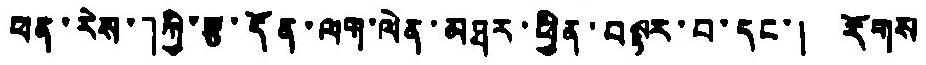ཕན་རེས་」ཀྱི་རྩ་དོན་ལག་ལེན་མཐར་ཕྱིན་བསྟར་བ་དང་། རོགས
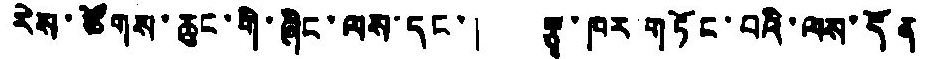རེས་ཚོགས་ཆུང་གི་ཞིང་ལས་དང་། རྩྭ་ཁར གཏོང་བའི་ལས་དོན
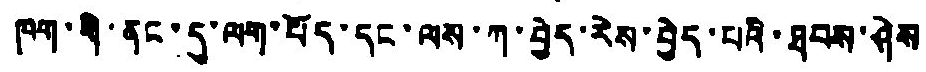ཁག་གི་ནང་དུ་ལག་པོད་དང་ལས་ཀ་བྱེད་རེས་བྱེད་པའི་ཐབས་ཤེས
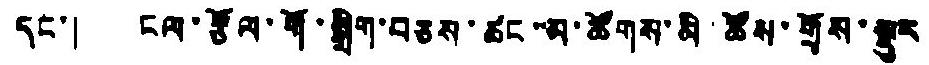དང་། ངལ་རྩོལ་གོ་སྒྲིག་བཅས་ཚང་མ་ཚོགས་མི་ཚོས་གྲོས་སྡུར
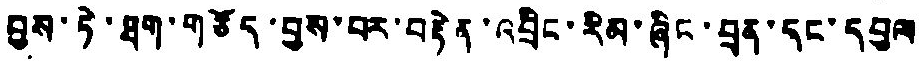བྱས་ཏེ་ཐག་གཅོད་བྱས་པར་བརྟེན་འབྲིང་རིམ་ཞིང་བྲན་དང་དབུལ
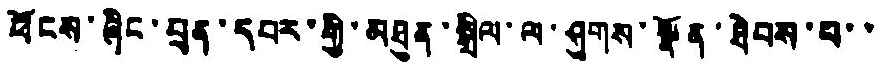ཕོངས་ཞིང་བྲན་དབར་གྱི་མཐུན་སྒྲིལ་ལ་ཤུགས་སྣོན་ཐེབས་པ་་་
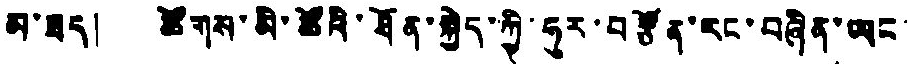མ་ཟད། ཚོགས་མི་ཚོའི་ཐོན་སྐྱེད་ཀྱི་ཧུར་བརྩོན་དང་བཞིན་ཡང་
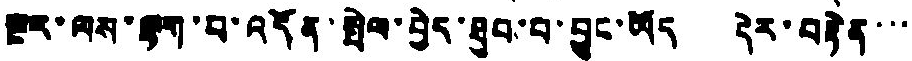སྔར་ལས་ལྟག་པ་འདོན་སྤེལ་བྱེད་ཐུབ་པ་བྱུང་ཡོད དེར་བརྟེན་་་
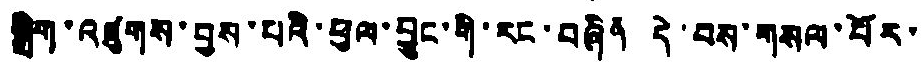སྒྲིག་འཛུགས་བྱས་པའི་ཕུལ་བྱུང་གི་རང་བཞིན དེ་བས་གསལ་པོར་
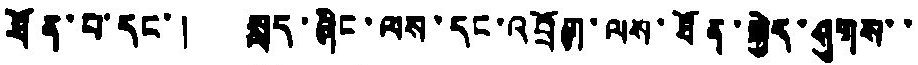ཐོན་པ་དང་། སླད་ཞིང་ལས་དང་འབྲོག་ལས་ཐོན་སྐྱེད་ཤུགས་་
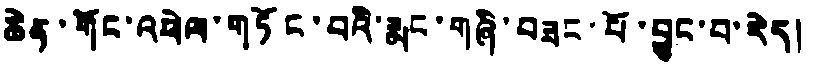ཆེན་གོང་འཕེལ་གཏོང་བའི་རྨང་གཞི་བཟང་པོ་བྱུང་བ་རེད།
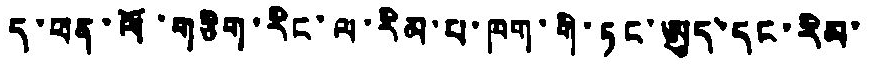ད་ཕན་ལོ་གཅིག་རིང་ལ་རིམ་པ་ཁག་གི་ཏང་ཨུད་དང་རིམ་
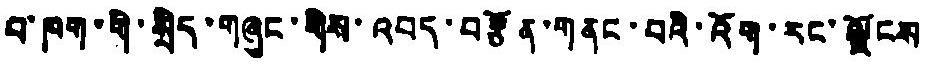བ་ཁག་གི་སྲིད་གཞུང་གིས་འབད་བརྩོན་གནང་བའི་འོག་རང་ལྗོངས
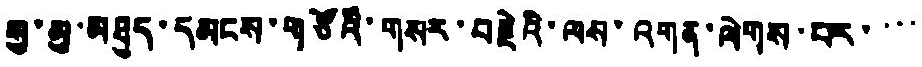སུ་མུ་མཐུད་དམངས་གཙོའི་གསར་བརྗེའི་ལས་འགན་ལེགས་པར་་་་
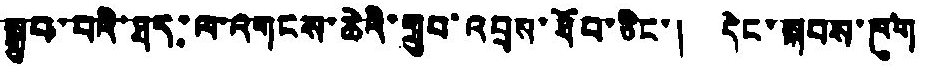སྒྲུབ་པའི་ཐད་ལ་འགངས་ཆེའི་གྲུབ་འབྲས་ཐོབ་ཅིང་། དེང་སྐབས་ཁུག
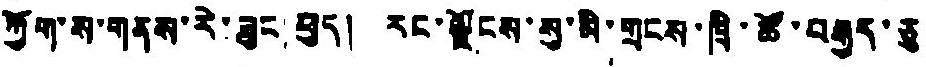ཀྱོག་ས་གནས་རེ་ཟུང ཕུད། རང་ལྗོངས་སུ་མི་གྲངས་ཁྲི་ཚོ་བརྒྱད་ཅུ
